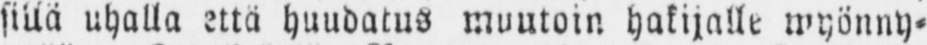sillä uhalla että huudatus muutoin hakijalle myönny-
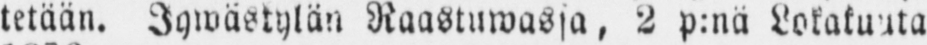tetään. Jywästylän Raastuwassa, 2 p:nä Lokakuuta
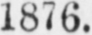1876.
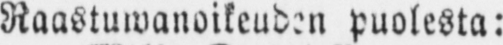Raastuwanoikeuden puolesta:
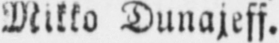Mikko Dunajeff.
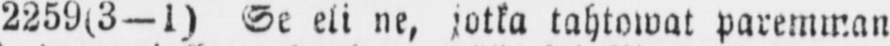2259(3—1) Se eli ne, jotka tahtowat paremman
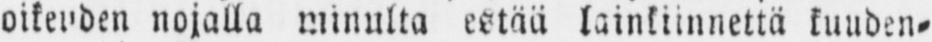oikeuden nojalla minulta estää lainkiinnettä kuuden-
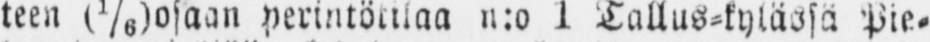teen ⅙osaan perintötilaa n:o 1 Tallus-kylässä Pie-
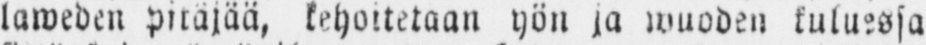laweden pitäjää, kehoitetaan yön ja wuoden kuluessa
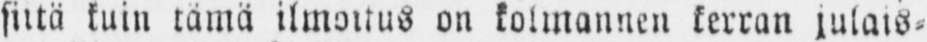siltä kuin tämä ilmoitus on kolmannen kerran julais-
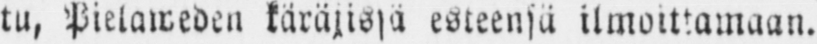tu, Pielaweden käräjissä esteensä ilmoittamaan.
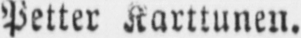Petter Karttunen.
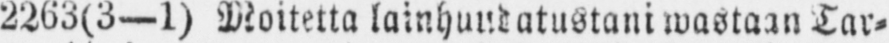2263(3 —1) Moitetta lainhuudatustani wastaan Tar-
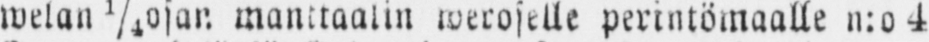welan ¼manttaalin weroselle perintömaalle n:o 4
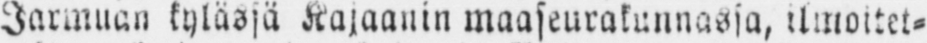Jarmuan kylässä Kajaanin maaseurakunnassa, ilmoitet-
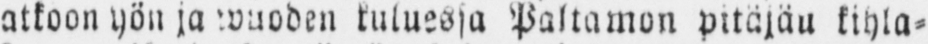atkoon yön ja wuoden kuluessa Paltamon pitäjää kihla-
